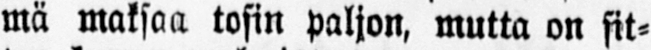mä maksaa tosin paljon, mutta on sit-
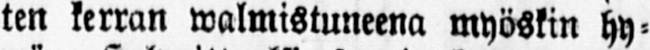ten kerran walmistuneena myöskin hy-
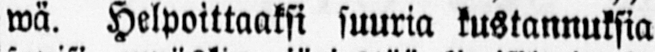wä. Helpoittaaksi suuria kustannuksia
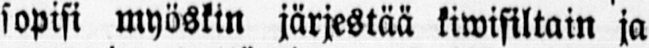sopisi myöskin järjestää kiwisiltain ja
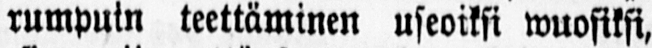rumpuin teettäminen useoiksi wuosiksi,
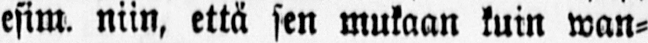esim. niin, että sen mukaan kuin wan-
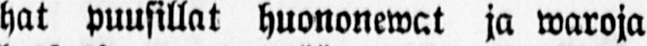hat puusillat huononewat ja waroja
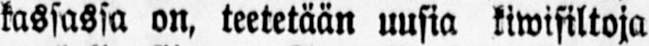kassassa on, teetetään uusia kiwisiltoja
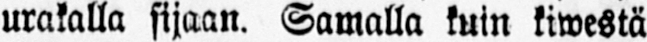urakalla sijaan. Samalla kuin kiwestä
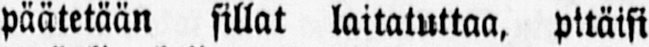päätetään sillat laitatuttaa, pitäisi
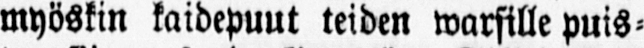myöskin kaidepuut teiden warsille puis-
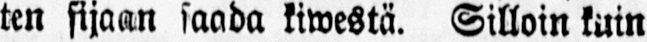ten sijaan saada kiwestä. Silloin kuin
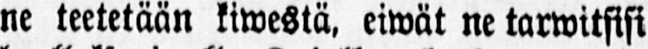ne teetetään kiwestä, eiwät ne tarwitsisi
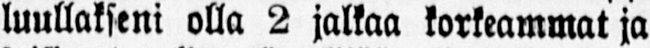luullakseni olla 2 jalkaa korkeammat ja
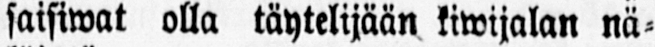saisiwat olla täytelijään kiwijalan nä-
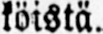köistä.
